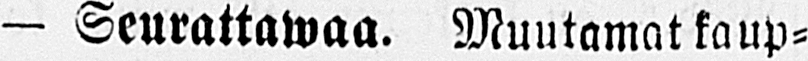— Seurattawaa. Muutamat kaup-
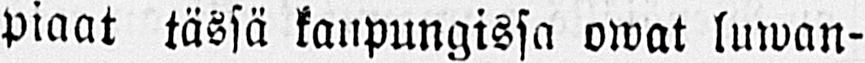piaat tässä kaupungissa owat luwan-
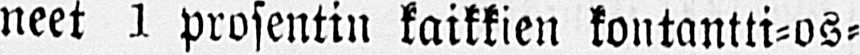neet 1 prosentin kaikkien kontantti-os-
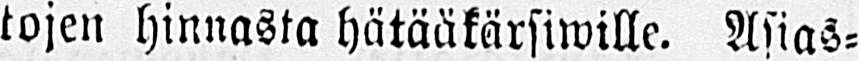tojen hinnasta hätääkärsiwille. Asias-
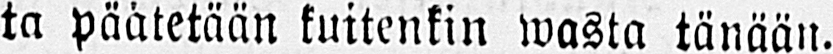ta päätetään kuitenkin wasta tänään.
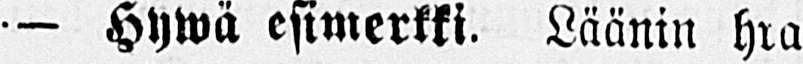— Hywä esimerkki. Läänin hra
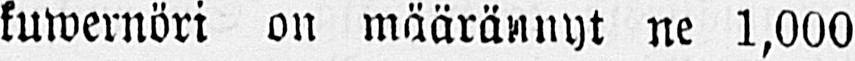kuwernöri on määrännyt ne 1,000
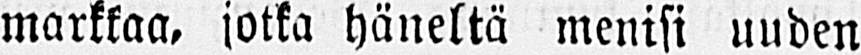markkaa, jotka häneltä menisi uuden
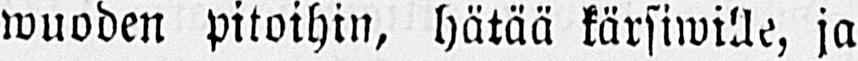wuoden pitoihin, hätää kärsiwille, ja
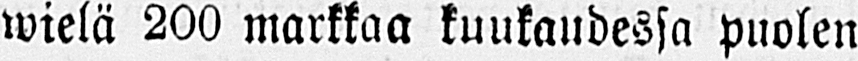wielä 200 markkaa kuukaudessa puolen
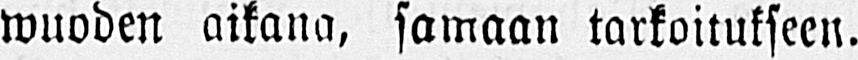wuoden aikana, samaan tarkoitukseen.
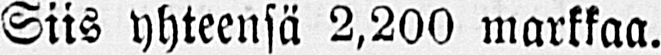Siis yhteensä 2,200 markkaa.
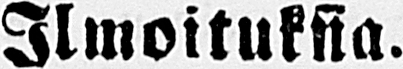Ilmoituksia.
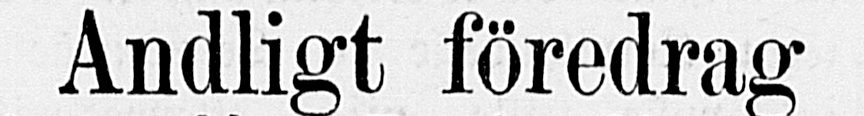Andligt föredrag
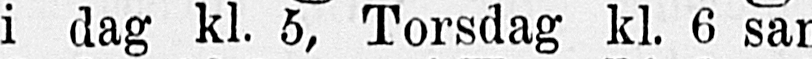i dag Kl. 5, Torsdag kl. 6 samt
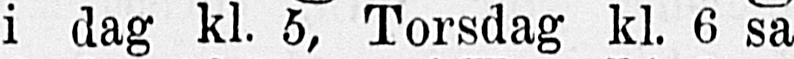fredag kl.7 e.m. i Herr Lindqvsits
